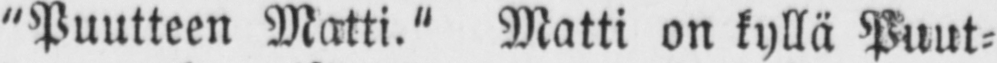"Puutteen Matti." Matti on kyllä Puut-
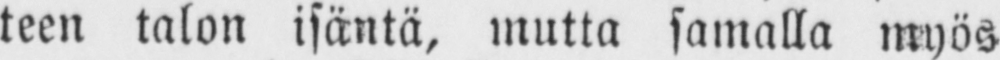teen talon isäntä, mutta samalla myös
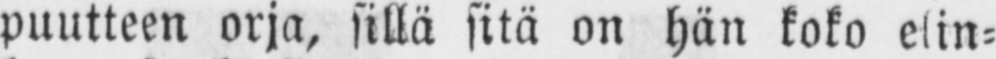puutteen orja, sillä sitä on hän koko elin-
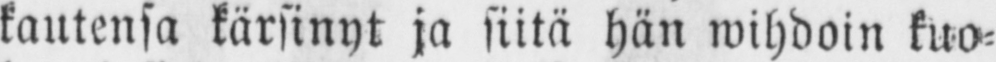kautensa kärsinyt ja siitä hän wihdoin kuo-
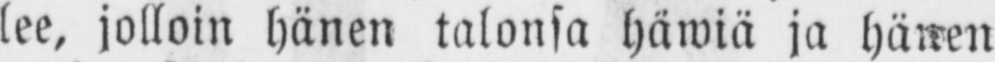lee, jolloin hänen talonsa häwiä ja hänen
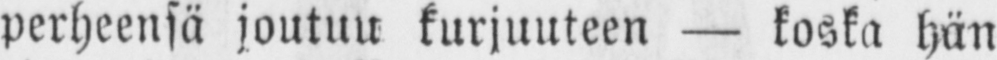perheensä joutuu kurjuuteen — koska hän
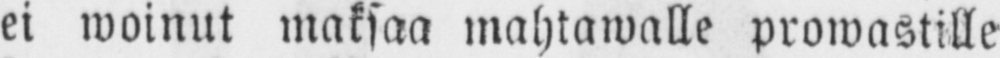ei woinut maksaa mahtawalle prowastille
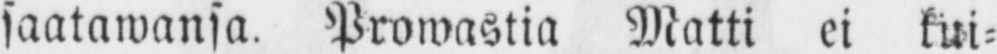saatawansa. Prowastia Matti ei kui-
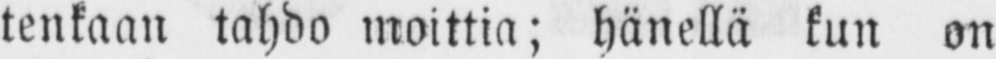tenkaan tahdo moittia; hänellä kun on
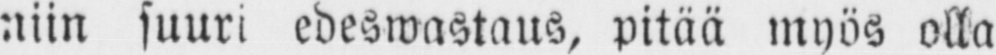niin suuri edeswastaus, pitää myös olla
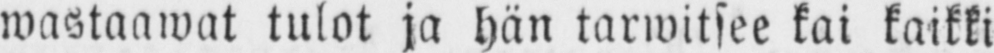wastaawat tulot ja hän tarwitsee kai kaikki
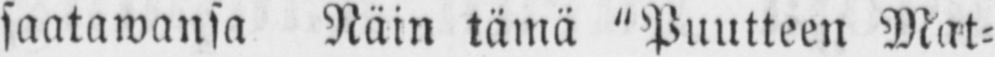saatawansa Näin tämä "Puutteen Mat-
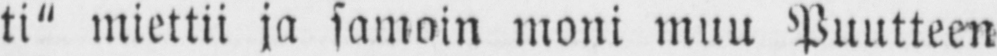ti" miettii ja samoin moni muu Puutteen
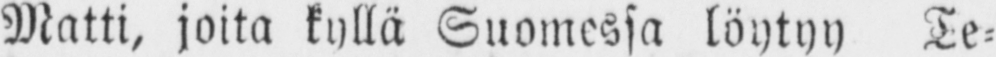Matti, joita kyllä Suomessa löytyy Te-
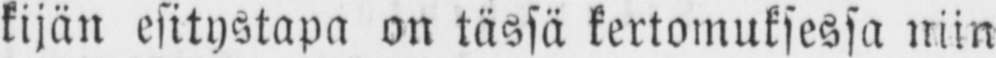kijän esitystapa on tässä kertomuksessa niin
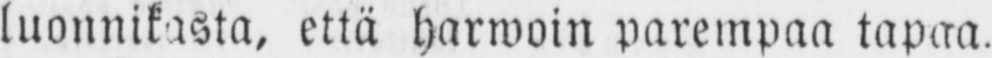luonnikasta, että Harwoin parempaa tapaa.
